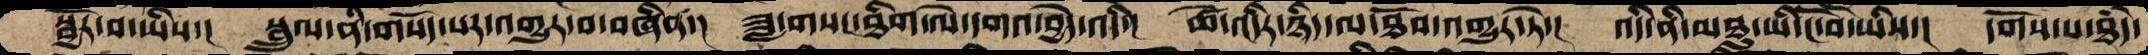སྦྱོར་བ་ཡིས་།  སྦྲུལ་ནི་གསོད་པར་འགྱུར་བ་བཞིན་།  ཟླ་གསང་ཐིག་ལེ་དགའ་བྱེད་འདི་།  ཚེ་འདིར་ཉིད་ལ་ཐོབ་འགྱུར་ཏེ་།  འདི་ནི་མཐུ་ཡི་ངོ་བོ་ཡིས་།  དགོས་པ་ཐཾད་
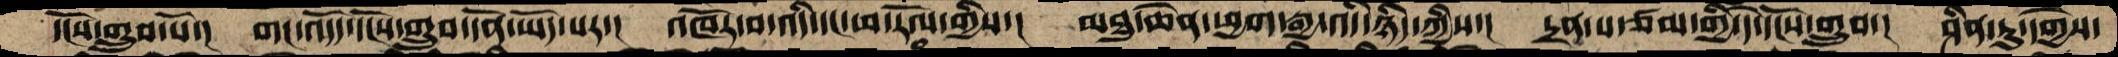དངོས་གྲུབ་པོ་།  གང་འདོད་དངོས་གྲུབ་དོན་ཡོད་པར་།  འཁོར་བ་འདི་དང་ཕ་རོལ་གྱིས་།  མཐུ་ཆེན་ཕྱག་རྒྱ་འདི་ཉིད་ཀྱིས་།  དྲན་པ་ཙམ་གྱི་དེ་དངོས་གྲུབ་།  ཤིན་ཏུ་དགྱེས་
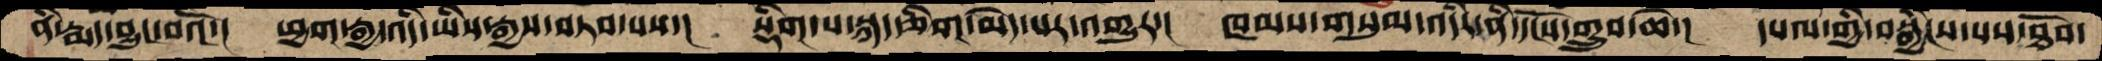ནི་རྨད་བྱུང་བའོ་།  ཕྱག་རྒྱ་འདི་ཡིས་རྒྱས་བཏབ་པས་།  སྡིག་པ་སྐད་ཅིག་མེད་པར་འགྱུར་།  ཁམས་གསུམ་འདིར་ནི་དངོས་གྲུབ་ཆེ་།  དཔལ་གྱི་བསྒྱིངས་པས་ཐོབ་
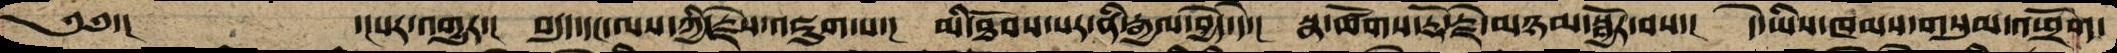༄༅་།       ་།པར་འགྱུར་།  བདུད་དང་ལས་ཀྱི་རྗེས་འཇུག་པ་།  མི་ཐོབས་པར་ནི་རྒྱལ་བྱེད་དེ་།  སྣ་ཚོགས་རྡོ་རྗེ་མཉམ་སྦྱོར་བས་།  དེ་ཡིས་ཁམས་གསུམ་འཕྲོག་
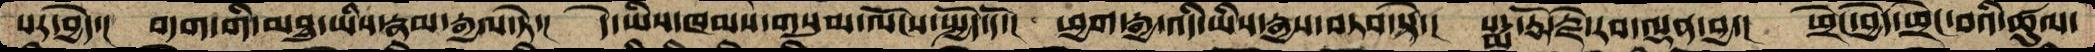པར་བྱེད་།  བདག་གི་མཐུ་ཡིས་རྣམ་རྒྱལ་ཏེ་།  དེ་ཡིས་ཁམས་གསུམ་ལོངས་སྤྱོད་དོ་།  ཕྱག་རྒྱ་འདི་ཡིས་རྒྱས་བཏབ་སྟེ་།  པདྨ་རྡོ་རྗེ་རབ་ལྡན་བྱ་།  ཕྲེང་བྱེད་ཕྲེང་བའི་ཚུལ་
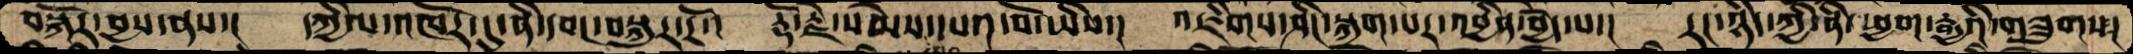བསྐོར་བྱས་ནས་།  དཀྱིལ་འཁོར་དུ་ནི་དབང་བསྐུར་རོ་།  རྡོ་རྗེ་སེམས་དཔའ་བོ་ཡིས་།  འཇིགས་ཤིང་སྐྲག་པར་འབྱིན་བྱེད་པ་།  རང་ཉིད་ཀྱི་ནི་ཕྱག་རྒྱའི་གཟུགས།
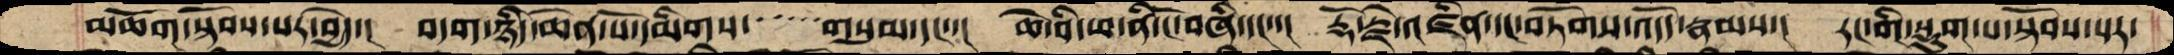མཆོག་སྟོབས་པར་བྱེད་།  བདག་ཉིད་ཆེན་པོ་དམིགས་  གསུམ་དང་་།  ཆེ་བི་ཕ་ནི་ངོ་བཞིན་དང་་།  རྡོ་རྗེ་འཛིན་དང་བཏོགས་འདོད་རྣམས་།  རང་གི་སྡུག་པ་སྟོབས་པར་
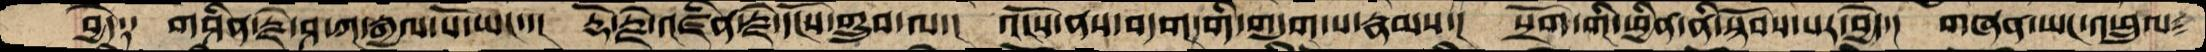བྱེད༑  གཤིན་་རྗེ་ཤ་ཀ་རྒྱལ་པོ་ཡང་་།  རྡོ་རྗེ་འཛིན་རྗེ་དངོས་གྲུབ་ལ་།  འོངས་ནས་བདག་གི་གདུག་པ་རྣམས་།  སྲོག་གི་ཕྱིན་ནི་སྟོབས་པར་བྱེད་།  གཞན་ཡང་འཕྲུལ་
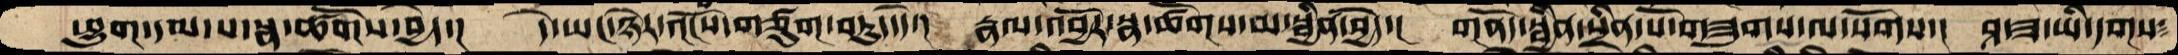ཕྱུག་དམ་པ་སྣ་ཚོགས་བྱེད་།  དེ་ཡང་ཉེར་འངོས་གཙུག་བཏུད་དེ་།  རྣལ་འབྱོར་སྣ་ཚོགས་མ་སྦྱིན་བྱེད་།  གནོད་སྦྱིན་སྲིན་པོ་གཟུགས་ལ་སོགས་།  ཤ་ཟ་ཡི་དགས༴
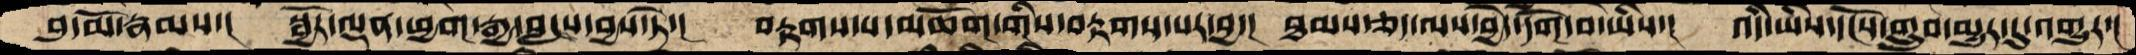བུ་མོ་རྣམས་། སྦྱོར་ལྡན་ཕྱག་རྒྱ་བླངས་བྱས་ཏེ་།  བརྟགས་པ་མཆོག་གིས་བརྟགས་པར་བྱ་།  ཐམས་ཅད་ལས་བྱེད་དགེ་བ་ཡིས་།  འདི་ཡིས་དངོས་གྲུབ་མྱུར་དུ་འགྱུར་།
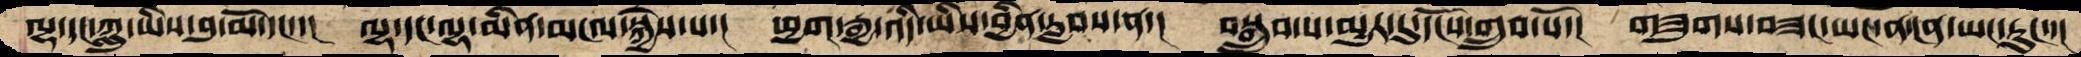ལྷ་དང་ཀླུ་ཡིས་བུ་མོ་དང་་།  ལྷ་ད་ལྷ་མིན་མངལ་སྐྱེས་པ་།  ཕྱག་རྒྱ་འདི་ཡིས་བྱིན་རླབས་ན་།  བསྒྲུབ་པ་མྱུར་དུ་དངོས་གྲུབ་སོ་།  གཟུགས་བཟང་ཡང་ན་ངན་ཡང་རུང་་།
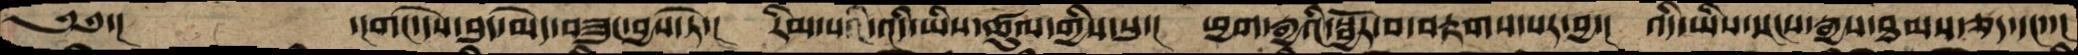༄༅་།         ་།གང་དེས་བུད་མེད་བཟུང་བྱས་ཏེ་།  རིག་པའི་འདི་ཡིས་ཚུལ་གྱིས་སུ་།  ཕྱག་རྒྱའི་སྦྱོར་བ་བརྟགས་པར་བྱ་།  འདི་ཡིས་སངས་རྒྱས་ཐམས་ཅད་དང་་།
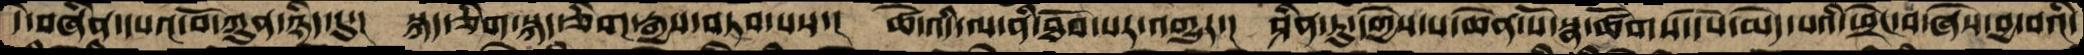དེ་བཞིན་དཔའ་བོ་ཀུན་ཉིད་དུ་།  སྐད་ཅིག་སྐད་ཅིག་རྒྱས་བཏབ་པས་།  ཚེ་འདི་ལ་ནི་ཐོབ་པར་འགྱུར་།  ཤིན་ཏུ་དགྱེས་པ་ཆེན་པོ་སྣ་ཚོགས་དཔེ་མེད་པའི་ཕྲེང་བ་ཞེས་བྱ་བའི་
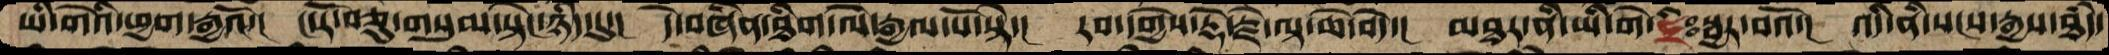ཡི་གེའི་ཕྱག་རྒྱའོ་།  ང་རོ་བཅུ་གསུམ་སྟེང་ཉིད་དུ་།  དེ་བཞིན་ཐིག་ལེ་རྒྱལ་པོ་སྟེ་།  རབ་དགྱེས་རྡོ་རྗེ་ལྟ་ཆེ་བདེ་།  མཐར་ནི་ཡི་གེ་ཧྲིཿསྦྱར་བའོ་།   འིད་ནི་སངས་རྒྱས་ཐཾད་
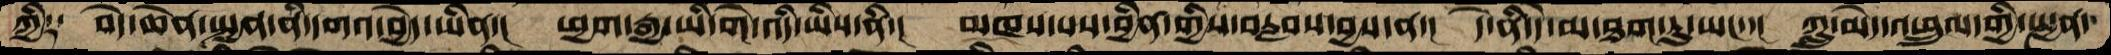ཀྱི༑  བདེ་ཆེན་སྤྱན་ནི་དགའ་བྱེད་ཡིན་།  ཕྱག་རྒྱ་ཡི་གེ་འདི་ཡིས་ནི་།  མཁས་པས་བྱིན་གྱིས་བརླབས་བྱས་ན་།  དེ་ནི་དེ་མ་ཐག་ཏུ་ཡང་་།  ཀླུ་མེད་འཕྲུལ་གྱི་སྤྱན་
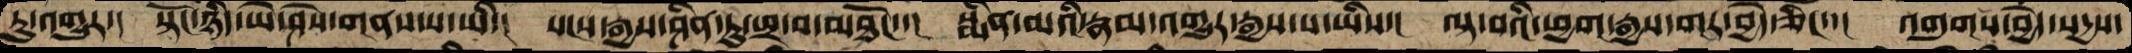ཏུ་འགྱུར་།  སྟོང་ཉིད་ཡེ་ཤེས་གནས་པ་ཡི་།  སངས་རྒྱས་ཤིན་ཏུ་ཕྲ་བ་མཐོང་་།  སྨིན་མའི་རྣམ་འགྱུར་རྒྱས་པ་ཡིས་།  ལྟ་བའི་ཕྱག་རྒྱས་གར་བྱེད་ཅིང་་།  འགུགས་བྱེད་སདྱས་
